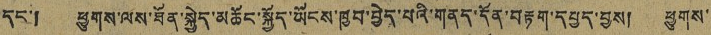དང་། ཕྱུགས་ལས་ཐོན་སྐྱེད་མཆོང་སྐྱོད་ཡོངས་ཁྱབ་བྱེད་པའི་གནད་དོན་བརྟག་དཔྱད་བྱས། ཕྱུགས་
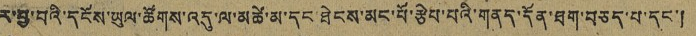ར་བྱ་བའི་དངོས་ཡུལ་ཚོགས་འདུ་ལ་མཚེ་མ་དང་ཐེངས་མང་པོ་རྩེབ་པའི་གནད་དོན་ཐག་བཅད་པ་དང་།
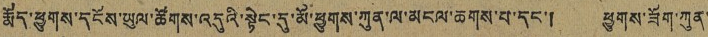རྨོད་ཕྱུགས་དངོས་ཡུལ་ཚོགས་འདུའི་སྟེང་དུ་མོ་ཕྱུགས་ཀུན་ལ་མངལ་ཆགས་པ་དང་། ཕྱུགས་ཟོག་ཀུན་
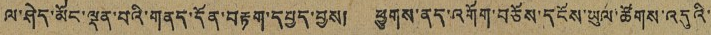ལ་ཤེད་མོང་ལྡན་པའི་གནད་དོན་བརྟག་དཔྱད་བྱས། ཕྱུགས་ནད་འགོག་བཅོས་དངོས་ཡུལ་ཚོགས་འདུའི་
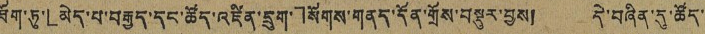ཐོག་ཏུ་「མེད་པ་བརྒྱད་དང་ཚོད་འཛིན་དྲུག་」སོགས་གནད་དོན་གྲོས་བསྡུར་བྱས། དེ་བཞིན་དུ་ཚོད་
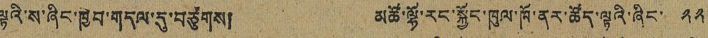ལྟའི་ས་ཞིང་ཁྱབ་གདལ་དུ་བཙུགས། མཚོ་ལྷོ་རང་སྐྱོང་ཁུལ་ཁོ་ནར་ཚད་ལྟའི་ཞིང་ ༢༢
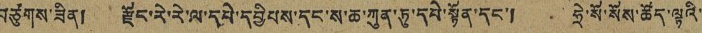བཙུགས་ཟིན། རྫོང་རེ་རེ་ལ་དཔེ་དབྱིབས་དང་ས་ཆ་ཀུན་ཏུ་དཔེ་སྟོན་དང་། ཧྲེ་སོ་སོས་ཚོད་ལྟའི་
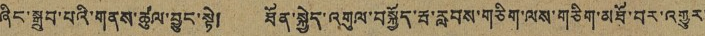ཞིང་སྒྲུབ་པའི་གནས་ཚུལ་བྱུང་སྟེ། ཐོན་སྐྱེད་འགུལ་བསྐྱོད་རྦ་རླབས་གཅིག་ལས་གཅིག་མཐོ་བར་འགྱུར་
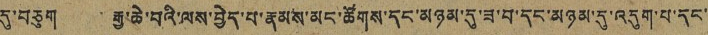དུ་བཅུག རྒྱ་ཆེ་བའི་ལས་བྱེད་པ་རྣམས་མང་ཚོགས་དང་མཉམ་དུ་ཟ་བ་དང་མཉམ་དུ་འདུག་པ་དང་
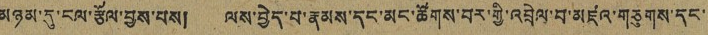མཉམ་དུ་ངལ་རྩོལ་བྱས་པས། ལས་བྱེད་པ་རྣམས་དང་མང་ཚོགས་བར་གྱི་འབྲེལ་བ་མཛའ་གཅུགས་དང་
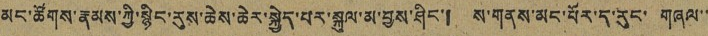མང་ཚོགས་རྣམས་ཀྱི་སྙིང་རུས་ཆེས་ཆེར་སྐྱེད་པར་སྐུལ་མ་བྱས་ཤིང་། ས་གནས་མང་པོར་ད་རུང་ གཞལ་་
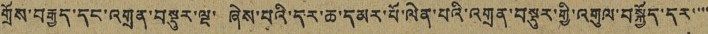གྲོས་བརྒྱད་དང་འགྲན་བསྡུར་ལྔ་ ཞེས་པའི་དར་ཆ་དམར་པོ་ལེན་པའི་འགྲན་བསྡུར་གྱི་འགུལ་བསྐྱོད་དར་་་་
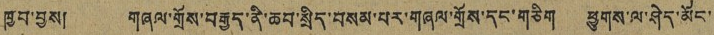ཁྱབ་བྱས། གཞལ་གྲོས་བརྒྱད་ནི་ཆབ་སྲིད་བསམ་པར་གཞལ་གྲོས་དང་གཅིག ཕྱུགས་ལ་ཤེད་མོང་
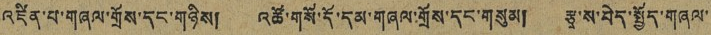འཛིན་པ་གཞལ་གྲོས་དང་གཉིས། འཚོ་གསོ་དོ་དམ་གཞལ་གྲོས་དནག་གསུམ། རྩྭ་ས་བེད་སྤྱོད་གཞལ་
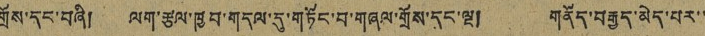གྲོས་དང་བཞི། ལག་རྩལ་ཁྱབ་གདལ་དུ་གཏོང་བ་གཞལ་གྲོས་དང་ལྔ། གནོད་བརྒྱད་མེད་པར་་
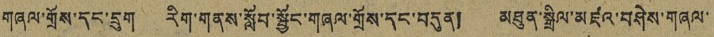གཞལ་གྲོས་དང་དྲུག རིག་གནས་སློབ་སྦྱོང་གཞལ་གྲོས་དང་བདུན། མཐུན་སྒྲིལ་མཛའ་བཤེས་གཞལ་
